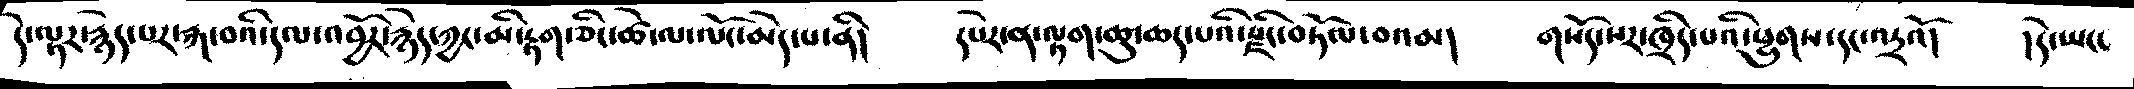དེ་ལྟར་རྙེད་པར་རྐ་བའི་དལ་འབྱོར་རྙེད་ཀྱང་མི་རྟག་ཅིང་ཚེ་ལ་ལོང་མེད་པ་ནི།    དཔེར་ན་ལྟག་ཆུ་ཆད་པའི་རྫིང་བཏོལ་བའམ།    གསོད་སར་ཁྲིད་པའི་ཕྱུགས་དང་འདྲའོ།   །དེ་ཡང་
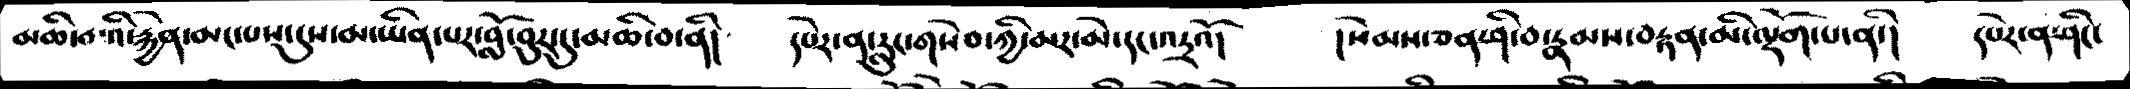མཆི་བ་འི་རྐྱེན་མང་པས་དུས་མ་ཡིན་པར་བློ་བུར་དུ་མཆི་བ་ནི།    དཔེར་ན་རླུང་གསེབ་ཀྱི་མར་མེ་དང་འདྲའོ།   །སེམས་ཅན་ཤི་བ་རྣམས་བརྟན་མི་ལྡོག་པ་ནི་།  དཔེར་ན་ཤིང་
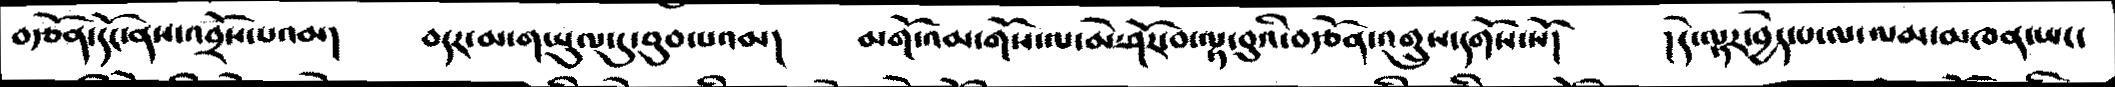བརྩོན་དོང་ནས་འབྲོས་པའམ།    བདར་མ་གཡུལ་དུ་བུབ་པའམ།   མགོ་འམ་གོས་ལ་མེ་ཤོར་བ་ལྟ་བུའི་བརྩོན་འགྲུས་དགོས་སོ།   །དེ་ལྟར་བྱེད་པ་ལ་ལམ་མཁན་ཡང་
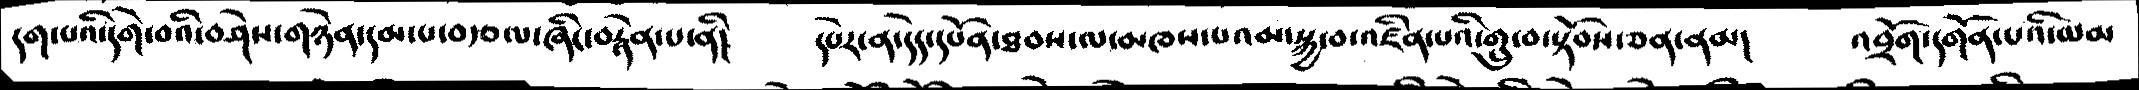དག་པའི་དགེ་བའི་བཤེས་གཉེན་དམ་པ་བརྩལ་ཞིང་བརྟེན་པ་ནི།    དཔེར་ན་དེད་དཔོན་ཐབས་ལ་མཁས་པའམ་སྐྱ་བ་འཛིན་པའི་གྲུ་བ་སྟོབས་ཅན་ནམ།  འབྲོག་དགོན་པའི་ལམ
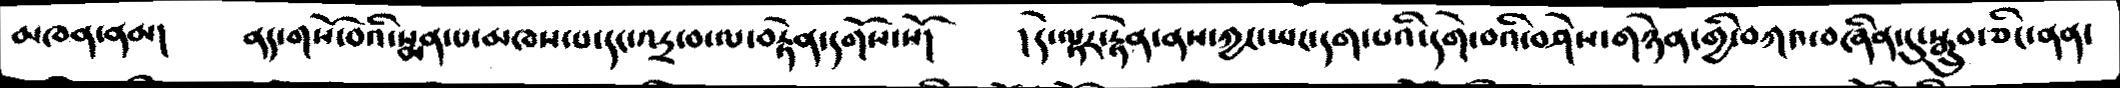མཁན་ནམ།      ནད་གསོ་བའི་སྨན་པ་མཁས་པ་དང་འདྲ་བ་ལ་བརྟེན་དགོས་སོ།     །དེ་ལྟར་རྟེན་ནས་ཀྱང་ཡང་དག་པའི་དགེ་བའི་བཤེས་གཉེན་གྱི་བཀའ་བཞིན་དུ་སྒྲུབ་ཅིང་ནན་
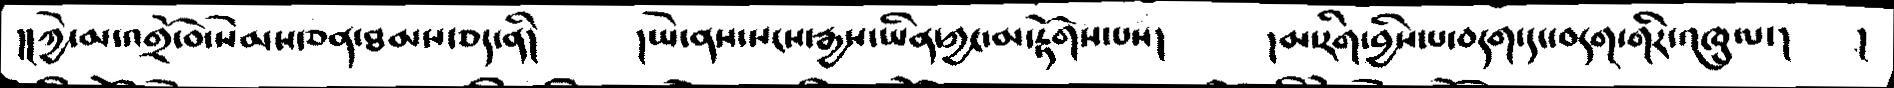།།ཀྱེ་མ་འགྲོ་བ་སེམས་ཅན་ཐམས་ཅད་ནི།    །ཡེ་ནས་སངས་རྒྱས་ཡིན་ཀྱང་མ་རྟོགས་པས།   །མ་རིག་བྱིས་པ་བདག་དང་བདག་གིར་འཁྲུལ་།  །
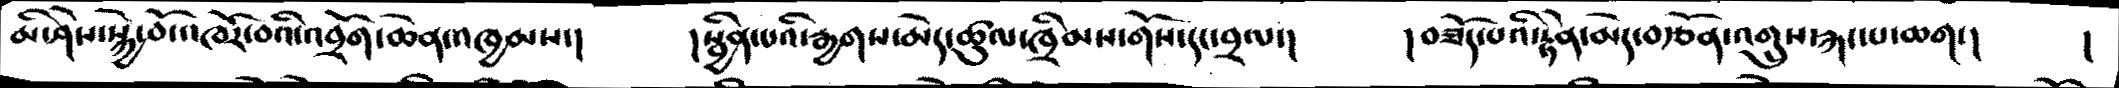མི་ཤེས་སྐྱེ་བོ་འཁོར་བའི་འབྲོག་ཆེན་འཁྱམས་།     ། སྦྱིན་པའི་རྒྱགས་མེད་ཚུལ་ཁྲིམས་གོས་དང་བྲལ་།   ། བཟོད་པའི་རྟེན་མེད་བརྩོན་འགྲུས་རྐང་པ་ཆག་།   །
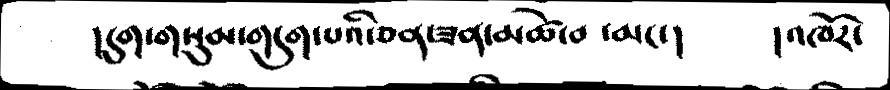། དུག་གསུམ་གདུག་པའི་ཅན་ཟན་མཚེ་བ་ མང་།      ། འཁོར་
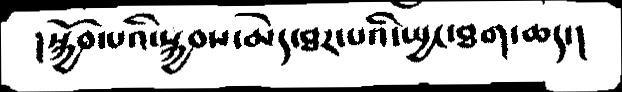།སྐྱོབ་པའི་སྐྱབས་མེད་ཐར་པའི་ཡྱང་ཐག་ཆད་།
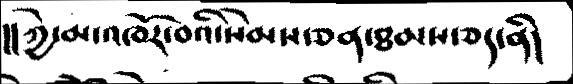།། ཀྱེ་མ་འཁོར་བའི་སེམས་ཅན་ཐམས་ཅད་ནི།
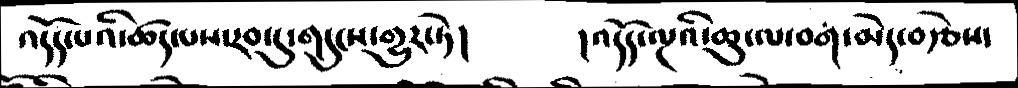འདོད་པའི་ཚད་པས་རབ་དུ་གདུངས་གྱུར་ཏེ།       ། འདོད་ལྔའི་ཆུ་ལ་བག་མེད་བརྩེས་
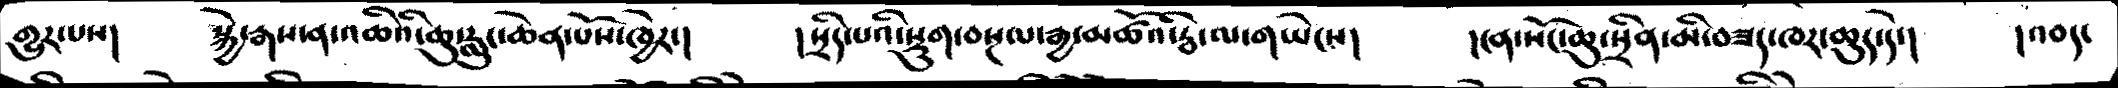གྱུར་པས།   སྐྱེ་རྒས་ན་འཆིའི་ཆུ་རླུང་ཆེན་པོས་ཁྱེར་།    ། སྲིད་པའི་སྡུག་བསྔལ་རྒྱ་མཚོའི་རྦ་ལ་གཡེངས།  །ངན་སོང་ཆུ་སྲིན་མི་བཟད་ཁར་ཆུད་དེ་།   །འབད་
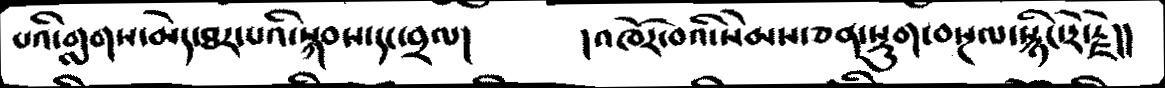པའི་གླགས་མེད་ཐར་པའི་སྐབས་དང་བྲལ།      །འཁོར་བའི་སེམས་ཅན་སྡུག་བསྔལ་སྙིང་རེ་རྗེ།།
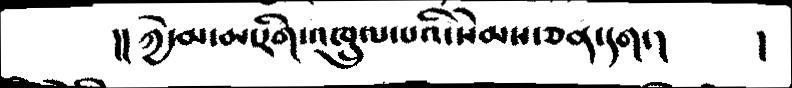།། ཀྱེ་མ་མ་རིག་འཁྲུལ་པའི་སེམས་ཅན་དག་།    །
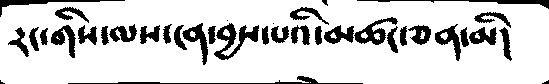རང་གིས་ལས་ངན་བྱས་པའི་མཚང་ཅན་མི།
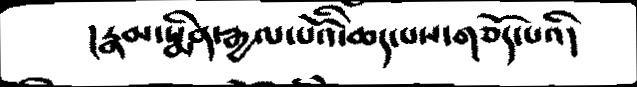།རྣམ་སྨིན་རྒྱལ་པོའི་ཆད་པས་གཅོད་པའི།
